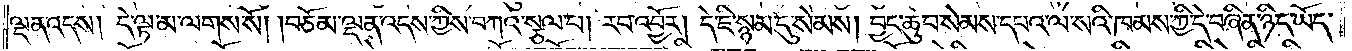ལྡན་འདས། དེ་ལྟ་མ་ལགས་སོ། །བཅོམ་ལྡན་འདས་ཀྱིས་བཀའ་སྩལ་པ། རབ་འབྱོར། དེ་ཇི་སྙམ་དུ་སེམས། བྱང་ཆུབ་སེམས་དཔའ་ལ་སའི་ཁམས་ཀྱི་དེ་བཞིན་ཉིད་ཡོད་
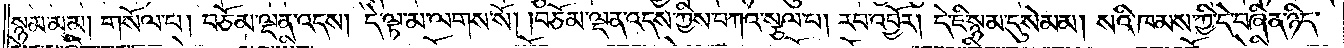སྙམ་མམ། གསོལ་པ། བཅོམ་ལྡན་འདས། དེ་ལྟ་མ་ལགས་སོ། །བཅོམ་ལྡན་འདས་ཀྱིས་བཀའ་སྩལ་པ། རབ་འབྱོར། དེ་ཇི་སྙམ་དུ་སེམམ། སའི་ཁམས་ཀྱི་དེ་བཞིན་ཉིད་
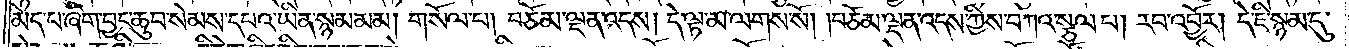མེད་པ་ཞིག་བྱང་ཆུབ་སེམས་དཔའ་ཡིན་སྙམ་མམ། གསོལ་པ། བཅོམ་ལྡན་འདས། དེ་ལྟ་མ་ལགས་སོ། །བཅོམ་ལྡན་འདས་ཀྱིས་བཀའ་སྩལ་པ། རབ་འབྱོར། དེ་ཇི་སྙམ་དུ་
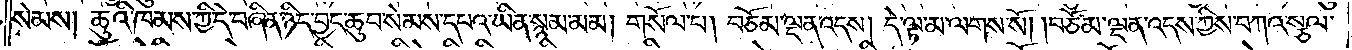སེམས། ཆུའི་ཁམས་ཀྱི་དེ་བཞིན་ཉིད་བྱང་ཆུབ་སེམས་དཔའ་ཡིན་སྙམ་མམ། གསོལ་པ། བཅོམ་ལྡན་འདས། དེ་ལྟ་མ་ལགས་སོ། །བཅོམ་ལྡན་འདས་ཀྱིས་བཀའ་སྩལ་
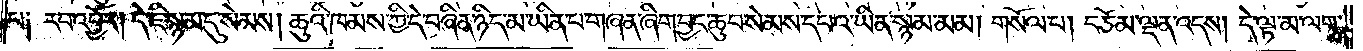པ༑ རབ་འབྱོར། དེ་ཇི་སྙམ་དུ་སེམས། ཆུའི་ཁམས་ཀྱི་དེ་བཞིན་ཉིད་མ་ཡིན་པ་གཞན་ཞིག་བྱང་ཆུབ་སེམས་དཔའ་ཡིན་སྙམ་མམ། གསོལ་པ། བཅོམ་ལྡན་འདས། དེ་ལྟ་མ་ལགས་
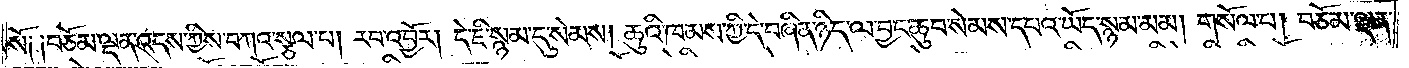སོ༑ ༑བཅོམ་ལྡན་འདས་ཀྱིས་བཀའ་སྩལ་པ། རབ་འབྱོར། དེ་ཇི་སྙམ་དུ་སེམས། ཆུའི་ཁམས་ཀྱི་དེ་བཞིན་ཉིད་ལ་བྱང་ཆུབ་སེམས་དཔའ་ཡོད་སྙམ་མམ། གསོལ་པ། བཅོམ་ལྡན་
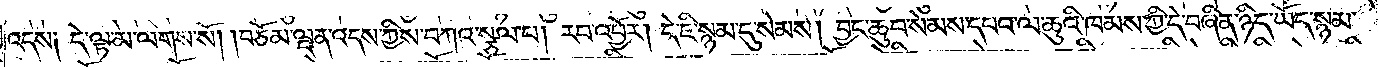འདས༑ དེ་ལྟ་མ་ལགས་སོ། །བཅོམ་ལྡན་འདས་ཀྱིས་བཀའ་སྩལ་པ། རབ་འབྱོར། དེ་ཇི་སྙམ་དུ་སེམས། བྱང་ཆུབ་སེམས་དཔའ་ལ་ཆུའི་ཁམས་ཀྱི་དེ་བཞིན་ཉིད་ཡོད་སྙམ་
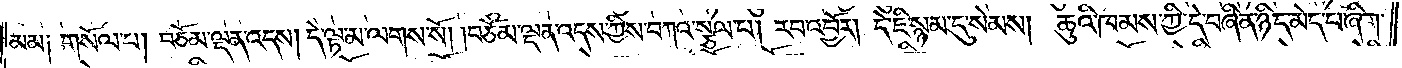མམ༑ གསོལ་པ། བཅོམ་ལྡན་འདས། དེ་ལྟ་མ་ལགས་སོ། །བཅོམ་ལྡན་འདས་ཀྱིས་བཀའ་སྩལ་པ། རབ་འབྱོར། དེ་ཇི་སྙམ་དུ་སེམས། ཆུའི་ཁམས་ཀྱི་དེ་བཞིན་ཉིད་མེད་པ་ཞིག་
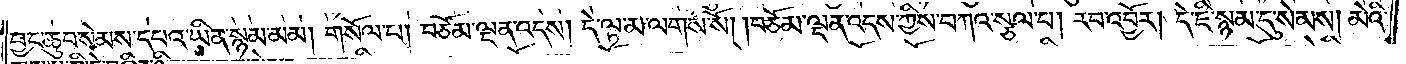བྱང་ཆུབ་སེམས་དཔའ་ཡིན་སྙམ་མམ། གསོལ་པ། བཅོམ་ལྡན་འདས། དེ་ལྟ་མ་ལགས་སོ། །བཅོམ་ལྡན་འདས་ཀྱིས་བཀའ་སྩལ་པ། རབ་འབྱོར། དེ་ཇི་སྙམ་དུ་སེམས། མེའི་
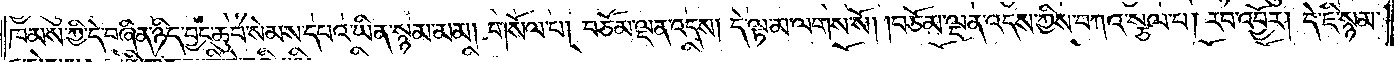ཁམས་ཀྱི་དེ་བཞིན་ཉིད་བྱང་ཆུབ་སེམས་དཔའ་ཡིན་སྙམ་མམ། གསོལ་པ། བཅོམ་ལྡན་འདས། དེ་ལྟ་མ་ལགས་སོ། །བཅོམ་ལྡན་འདས་ཀྱིས་བཀའ་སྩལ་པ། རབ་འབྱོར། དེ་ཇི་སྙམ་
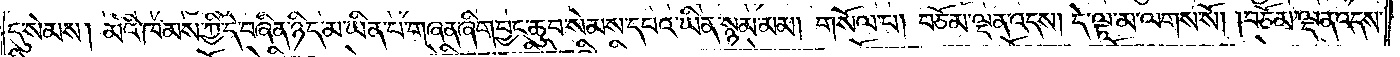དུ་སེམས། མེའི་ཁམས་ཀྱི་དེ་བཞིན་ཉིད་མ་ཡིན་པ་གཞན་ཞིག་བྱང་ཆུབ་སེམས་དཔའ་ཡིན་སྙམ་མམ། གསོལ་པ། བཅོམ་ལྡན་འདས། དེ་ལྟ་མ་ལགས་སོ། །བཅོམ་ལྡན་འདས་
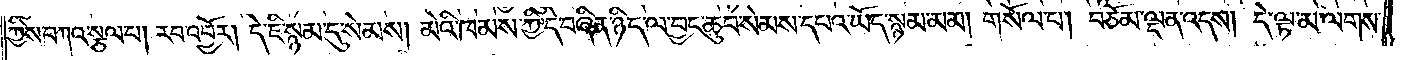ཀྱིས་བཀའ་སྩལ་པ། རབ་འབྱོར། དེ་ཇི་སྙམ་དུ་སེམས། མེའི་ཁམས་ཀྱི་དེ་བཞིན་ཉིད་ལ་བྱང་ཆུབ་སེམས་དཔའ་ཡོད་སྙམ་མམ། གསོལ་པ། བཅོམ་ལྡན་འདས། དེ་ལྟ་མ་ལགས་
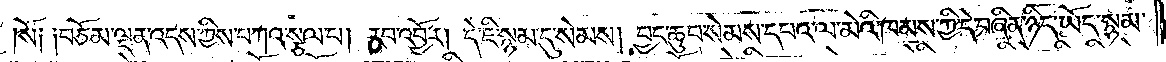སོ༑ ༑བཅོམ་ལྡན་འདས་ཀྱིས་བཀའ་སྩལ་པ། རབ་འབྱོར། དེ་ཇི་སྙམ་དུ་སེམས། བྱང་ཆུབ་སེམས་དཔའ་ལ་མེའི་ཁམས་ཀྱི་དེ་བཞིན་ཉིད་ཡོད་སྙམ་
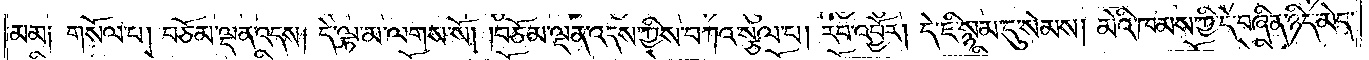མམ༑ གསོལ་པ། བཅོམ་ལྡན་འདས། དེ་ལྟ་མ་ལགས་སོ། །བཅོམ་ལྡན་འདས་ཀྱིས་བཀའ་སྩལ་པ། རབ་འབྱོར། དེ་ཇི་སྙམ་དུ་སེམས། མེའི་ཁམས་ཀྱི་དེ་བཞིན་ཉིད་མེད་
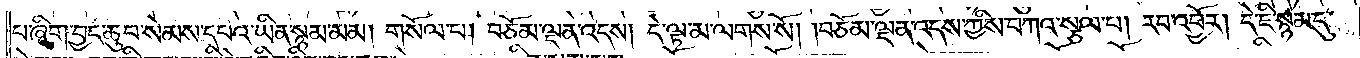པ་ཞིག་བྱང་ཆུབ་སེམས་དཔའ་ཡིན་སྙམ་མམ། གསོལ་པ། བཅོམ་ལྡན་འདས། དེ་ལྟ་མ་ལགས་སོ། །བཅོམ་ལྡན་འདས་ཀྱིས་བཀའ་སྩལ་པ། རབ་འབྱོར། དེ་ཇི་སྙམ་དུ་
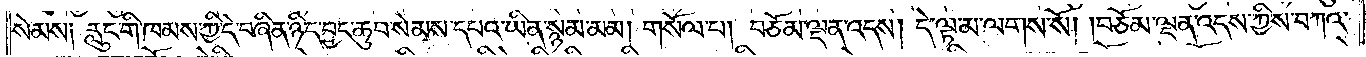སེམས༑ རླུང་གི་ཁམས་ཀྱི་དེ་བཞིན་ཉིད་བྱང་ཆུབ་སེམས་དཔའ་ཡིན་སྙམ་མམ། གསོལ་པ། བཅོམ་ལྡན་འདས། དེ་ལྟ་མ་ལགས་སོ། །བཅོམ་ལྡན་འདས་ཀྱིས་བཀའ་
